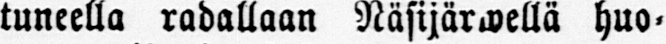tuneella radallaan Näsijärwellä huo-
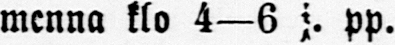menna klo 4—6 j. pp.
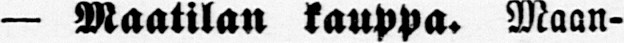— Maatilan kauppa. Maan-
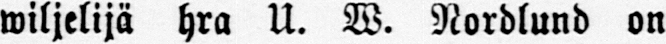wiljelijä hra U. W. Nordlund on
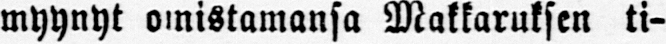myynyt omistamansa Makkaruksen ti-
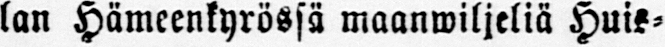lan Hämeenkyrössä maanwiljeliä Huis-
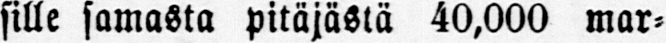sille samasta pitäjästä 40,000 mar-
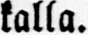kalla.
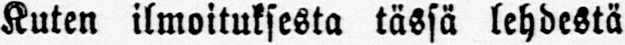Kuten ilmoituksesta tässä lehdestä
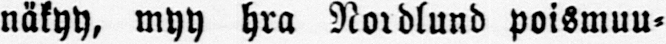näkyy, myy hra Nordlund poismuu-
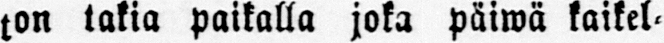ton takia paikalla joka päiwä kaikel-
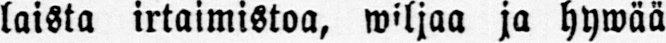laista irtaimistoa, wiljaa ja hywää
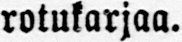rotukarjaa.
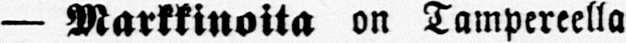— Markkinoita on Tampereella
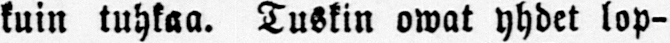kuin tuhkaa. Tuskin owat yhdet lop-
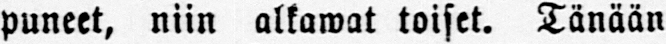puneet, niin alkawat toiset. Tänään
